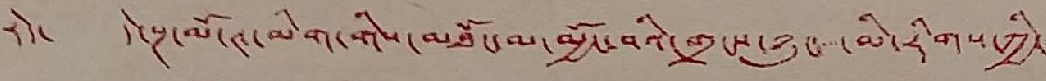རེད་ དེ་སྔ་མོ་ཊ་མིག་གིས་མཐོ་ང་མ་མྱོང་བའི་གྲངས་ཉུང་་་་་མི་རིགས་ཀྱི་
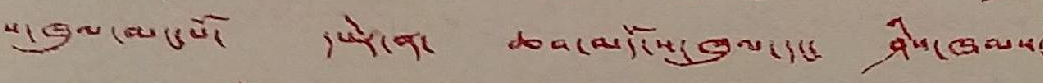ས་ཁུལ་མང་པོ་ དཔེར་ན་ ཆབ་མདོ་ས་ཁུལ་དང་ ཤིས་ཁམས་
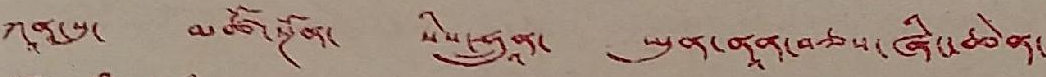ཀཱན་སུ་ མཚོ་སྔོན་ སིས་ཧྲུནཱ་ ཡུན་ནཱན་བཅས་ཞིང་ཆེན་
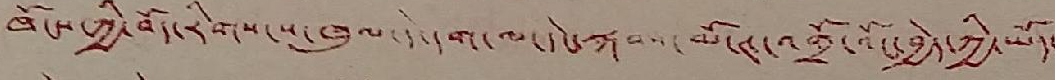ཁོངས་ཀྱི་བོད་རིགས་ས་ཁུལ་དེ་དག་ལ་དེང་སྐབས་མོ་ཊ་འགྲོ་འོང་བྱེད་ཀྱི་ཡོད་
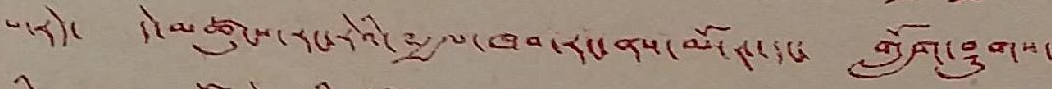པ་རེད་ དེ་མཚུངས་རང་རེའི་༸རྒྱལ་ཁབ་རང་ནས་མོ་ཊ་དང་ གློག་ཤུགས་
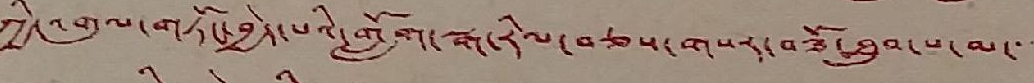ཀྱི་འགུལ་གཏོང་བྱེད་པའི་གློག་སྒ་རིལ་བཅས་གསར་བཟོ་ཐུབ་པ་མ་་
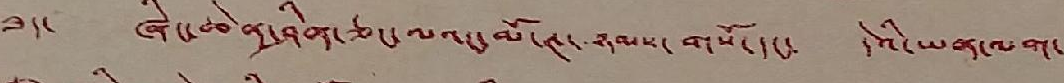ཟད་ ཞིང་ཆེན་ཤིན་ཅང་ལའང་མོ་ཊ་་ཉམས་གསོ་དང་ དེའི་ཡན་ལག་
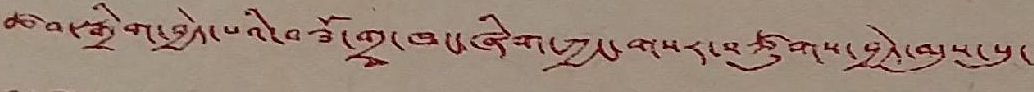ཚབ་སྒྲིག་བྱེད་པའི་བཟོ་གྲྭ་ཁང་ཞིག་ཀྱང་གསར་བཙུགས་བྱེད་མུས་སུ་་
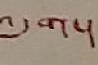འདུག་།
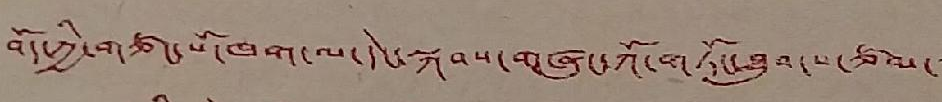བོད་ཀྱི་གཙང་པོ་ཁག་ལ་དེང་སྐབས་གཞུང་ཀོ་གཏོང་ཐུབ་པ་ཙམ་་་
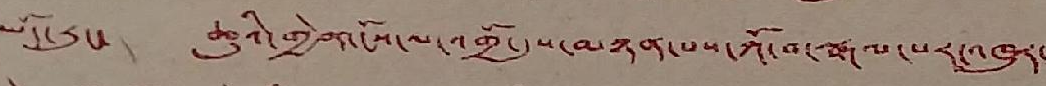ཡོད་རུང་ ཆུའི་གྱེན་ངོས་ལ་འགྲོ་དུས་མཉན་པས་ཀོ་བ་སྒལ་པར་འཁུར་
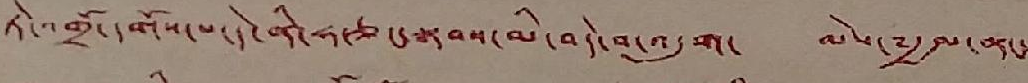ཏེ་འགྲོ་དགོས་པ་དེ་ནི་ཧ་ཅང་སྟབས་མོ་བདེ་བ་འདུག་ མེས་༸རྒྱལ་ནང་་
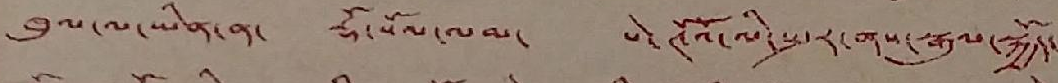ཁུལ་ལ་ཡིན་ན་ རྡོ་སོལ་ལམ་ པེ་ཊོའོ་ལི་སྤར་ནས་སྒུལ་སྐྱོད་
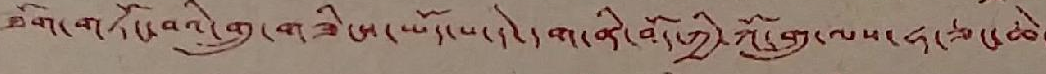ཐོག་གཏོང་བའི་གྲུ་གཟིངས་ཡོད་པ་དེ་དག་ནི་བོད་ཀྱི་ཀོ་གྲུ་ལས་ཧ་ཅང་ཆེ་
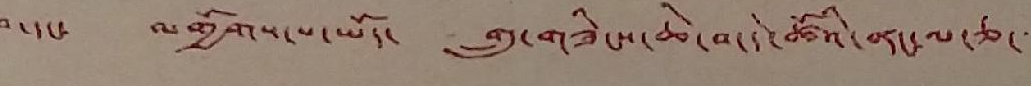བ་དང་ མགྱོགས་པ་ཡོད་ གྲུ་གཟིངས་ཆེ་བ་དེ་ཚོའི་ནང་ལ་ཅ་
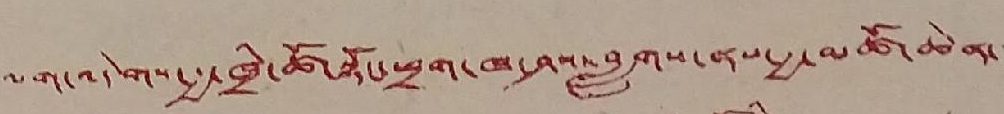ལག་འདེགས་རྒྱ་ཁྲི་ཚོ་སྟོང་ཕྲག་ཁ་ཤས་བླུགས་ནས་རྒྱ་མཚོ་ཆེན་་་
